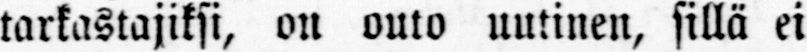tarkastajiksi, on outo uutinen, sillä ei
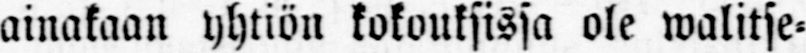ainakaan yhtiön kokouksissa ole walitse-
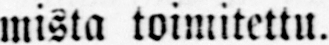mista toimitettu.
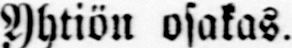Yhtiön osakas.
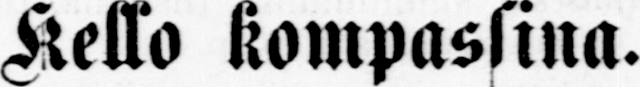Kello kompassina.
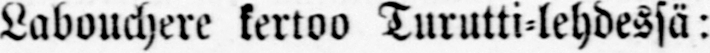Labouchere kertoo Turutti-lehdessä:
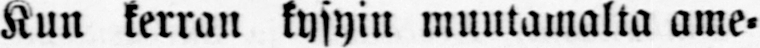Kun kerran kysyin muutamalta ame-
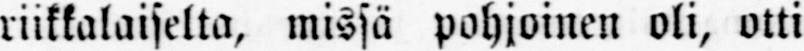riikkalaiselta, missä pohjoinen oli, otti
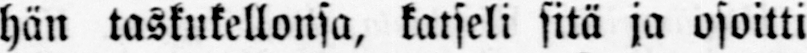hän taskukellonsa, katseli sitä ja osoitti
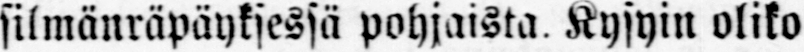silmänräpäyksessä pohjaista Kysyin oliko
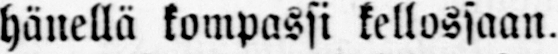hänellä kompassi kellossaan.
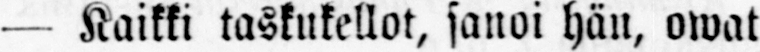— Kaikki taskukellot, sanoi hän, owat
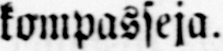kompasseja.
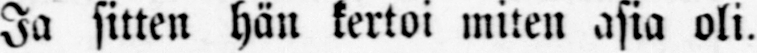Ja sitten hän kertoi miten asia oli.
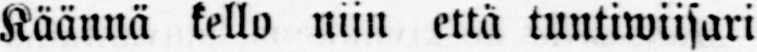Käännä kello niin että tuntiwiisari
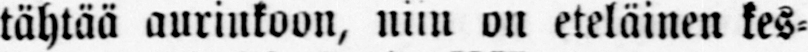tähtää aurinkoon, niin on eteläinen kes-
